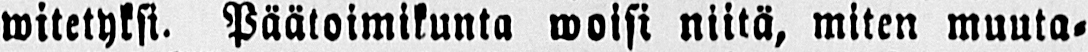witetyksi. Päätoimikunta woisi niitä, miten muuta-
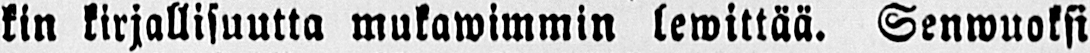kin kirjallisuutta mukawimmin lewittää. Senwuoksi
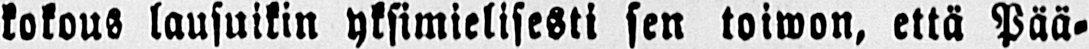kokous lausuikin yksimielisesti sen toiwon, että Pää-
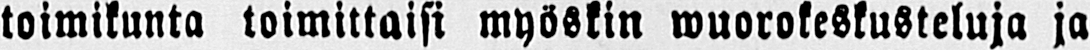toimikunta toimittaisi myöskin wuorokeskusteluja ja
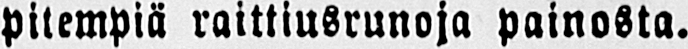pitempiä raittiusrunoja painosta.
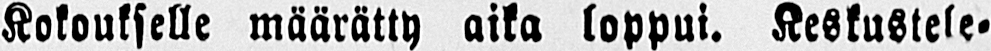Kokoukselle määrätty aika loppui. Keskustele-
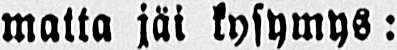matta jäi kysymys:
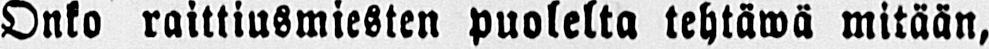Onko raittiusmiesten puolelta tehtäwä mitään,
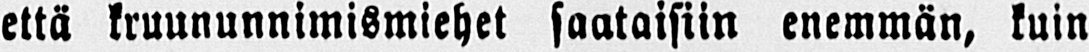että kruununnimismiehet saataisiin enemmän, kuin
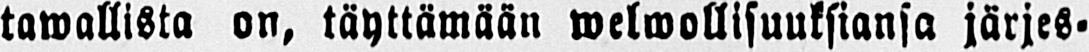tawallista on, täyttämään welwollisuuksiansa järjes-
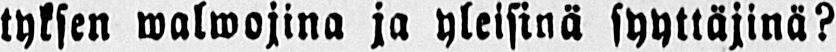tyksen walwojina ja yleisinä syyttäjinä?
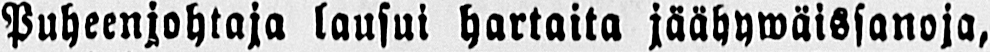Puheenjohtaja lausui hartaita jäähyvwäissanoja,
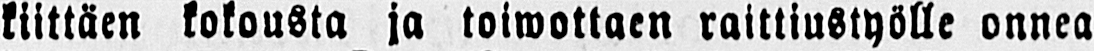kiittäen kokousta ja toiwottaen raittiustyölle onnea
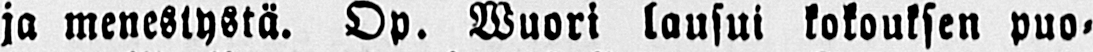ja menestystä. Op. Wuori lausui kokouksen puo-
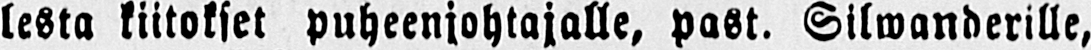lesta kiitokset puheenjohtajalle, past. Silwanderille,
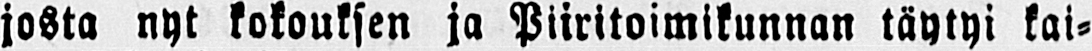josta nyt kokouksen ja Piiritoimikunnan täytyi kai-
